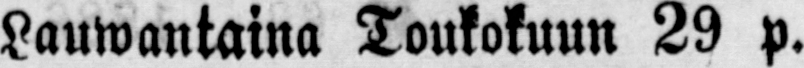Lauwantaina Toukokuun 29 p.
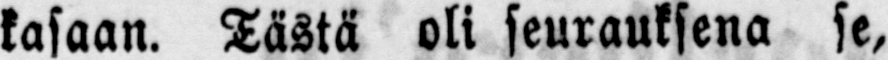kasaan. Tästä oli seurauksena se,
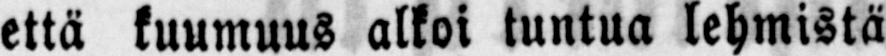että kuumuus alkoi tuntua lehmistä
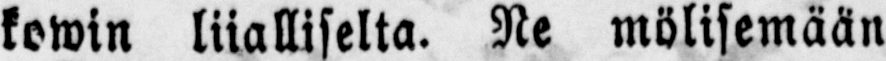kowin liialliselta. Ne mölisemään
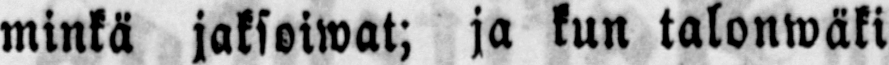minkä jaksoiwat; ja kun talonwäki
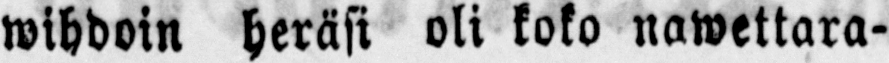wihdoin heräsi oli koko nawettara-
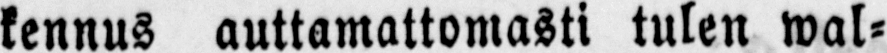kennus auttamattomasti tulen wal-
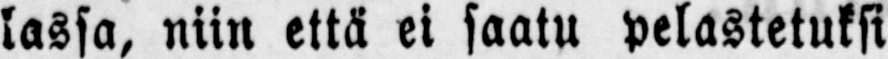lassa, niin että ei saatu pelastetuksi
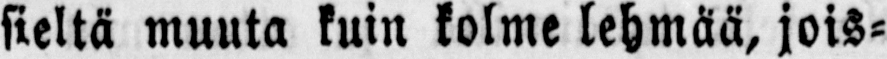sieltä muuta kuin kolme lehmää, jois-
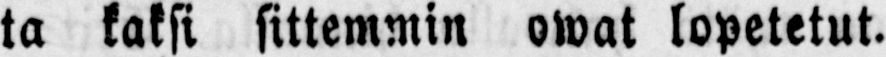ta kaksi sittemmin owat lopetetut.
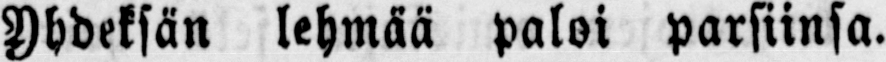Yhdeksän lehmää paloi parsiinsa.
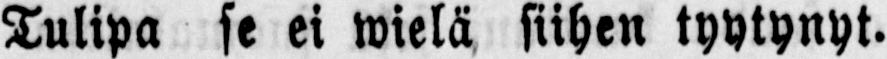Tulipa se ei wielä siihen tyytynyt.
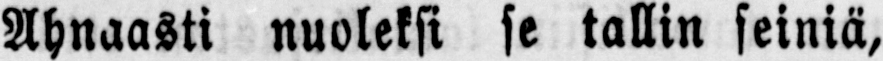Ahnaasti nuoleksi se tallin seiniä,
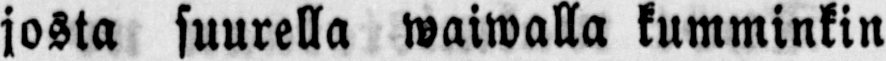josta suurella waiwalla kumminkin
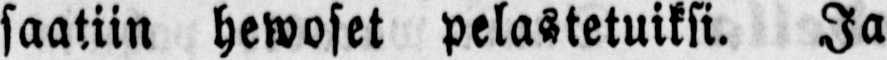saatiin hewoset pelastetuiksi. Ja
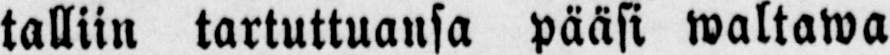talliin tartuttuansa pääsi waltawa
